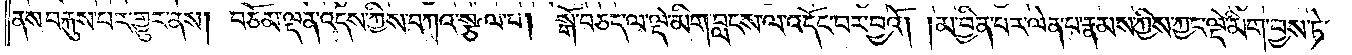ནས་བརྐུས་པར་གྱུར་ནས། བཅོམ་ལྡན་འདས་ཀྱིས་བཀའ་སྩལ་པ། སྒོ་བཅད་ལ་ལྡེ་མིག་བླངས་ལ་འདོང་བར་བྱའོ། །མ་བྱིན་པར་ལེན་པ་རྣམས་ཀྱིས་ཀྱང་ལྡེ་མིག་བྱས་ཏེ་
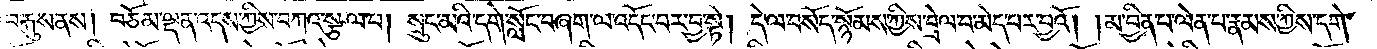བརྐུས་ནས། བཅོམ་ལྡན་འདས་ཀྱིས་བཀའ་སྩལ་པ། སྲུང་མའི་དགེ་སློང་བཞག་ལ་འདོང་བར་བྱ་སྟེ། དེ་ལ་བསོད་སྙོམས་ཀྱིས་བྲེལ་བ་མེད་པར་བྱའོ། །མ་བྱིན་པ་ལེན་པ་རྣམས་ཀྱིས་དགེ་
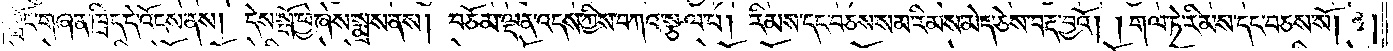སློང་གཞན་ཁྲིད་དེ་འོངས་ནས། དེས་སྒོ་ཕྱེ་ཞེས་སྨྲས་ནས། བཅོམ་ལྡན་འདས་ཀྱིས་བཀའ་སྩལ་པ། རིམས་དང་བཅས་སམ་རིམས་མེད་ཅེས་བརྡ་བྱའོ། །གལ་ཏེ་རིམས་དང་བཅས་སོ། །
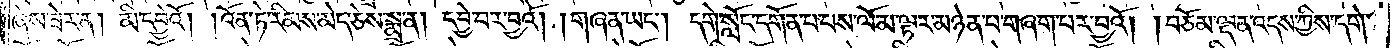ཞེས་ཟེར་ན། མི་དབྱེའོ། །འོན་ཏེ་རིམས་མེད་ཅེས་སྨྲ་ན། དབྱེ་བར་བྱའོ། །གཞན་ཡང༌། དགེ་སློང་དགོན་པ་པས་ལོ་མ་ལྟར་མཉེན་པ་གཞག་པར་བྱའོ། །བཅོམ་ལྡན་འདས་ཀྱིས་དགེ་
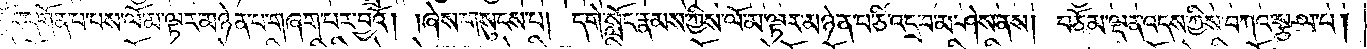སློང་དགོན་པ་པས་ལོ་མ་ལྟར་མཉེན་པ་གཞག་པར་བྱའོ། །ཞེས་གསུངས་པ། དགེ་སློང་རྣམས་ཀྱིས་ལོ་མ་ལྟར་མཉེན་པ་ཅི་འདྲ་བ་མ་ཤེས་ནས། བཅོམ་ལྡན་འདས་ཀྱིས་བཀའ་སྩལ་པ།
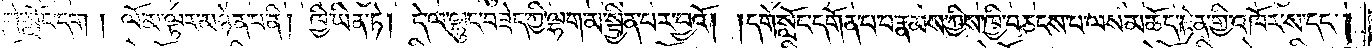དགེ་སློང་དག། ལོ་མ་ལྟར་མཉེན་པ་ནི། ཁྱི་ཡིན་ཏེ། དེ་ལ་ལྷུང་བཟེད་ཀྱི་ལྷག་མ་སྦྱིན་པར་བྱའོ། །དགེ་སློང་དགོན་པ་རྣམས་ཀྱིས་ཁྱི་བཅངས་པ་ལས་མཆོད་རྟེན་གྱི་འཁོར་ས་དང༌།
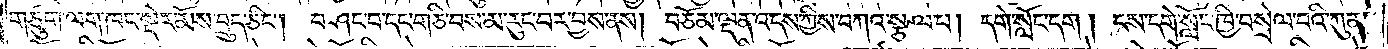གཙུག་ལག་ཁང་སྡེར་མོས་བྲུད་ཅིང༌། བཤད་བ་དང་གཅི་བས་མ་རུང་བར་བྱས་ནས། བཅོམ་ལྡན་འདས་ཀྱིས་བཀའ་སྩལ་པ། དགེ་སློང་དག། ངས་དགེ་སློང་ཁྱི་བསྲེལ་བའི་ཀུན་
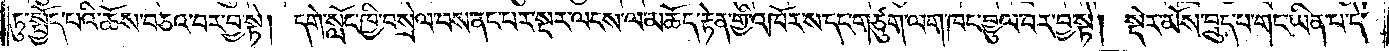ཏུ་སྤྱོད་པའི་ཆོས་བཅའ་བར་བྱ་སྟེ། དགེ་སློང་ཁྱི་བསྲེལ་བས་ནང་པར་སྔར་ལངས་ལ་མཆོད་རྟེན་གྱི་འཁོར་ས་དང་གཙུག་ལག་ཁང་བྱུལ་བར་བྱ་སྟེ། སྡེར་བྲུད་པ་གང་ཡིན་པ་དེ་
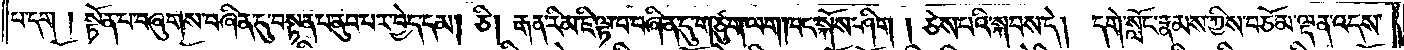པ་དག། སྟོན་པ་བཞུགས་བཞིན་དུ་བསྟན་པ་ནུབ་པར་བྱེད་དམ། ཅི། རྒན་རིམ་ཇི་ལྟ་བ་བཞིན་དུ་གཙུག་ལག་ཁང་སྐོས་ཤིག། ཅེས་པའི་སྐབས་དེ། དགེ་སློང་རྣམས་ཀྱིས་བཅོམ་ལྡན་འདས་
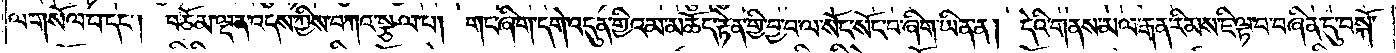ལ་གསོལ་པ་དང༌། བཅོམ་ལྡན་འདས་ཀྱིས་བཀའ་སྩལ་པ། གང་ཞིག་དགེ་འདུན་གྱིའམ་མཆོད་རྟེན་གྱི་བྱ་བ་ལ་སོང་སོང་བ་ཞིག་ཡིན་ན། དེའི་གནས་མལ་རྒན་རིམས་ཇི་ལྟ་བ་བཞིན་དུ་བསྐོ་
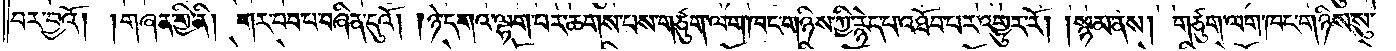བར་བྱའོ། །གཞན་གྱི་ནི། གར་བབ་པ་བཞིན་དུའོ། །ཉེ་དགའ་ལྷག་པར་ཆགས་པས་གཙུག་ལག་ཁང་གཉིས་ཀྱི་རྙེད་པ་འཐོབ་པར་འགྱུར་རོ། །སྙམ་ནས། གཙུག་ལག་ཁང་གཉིས་སུ་
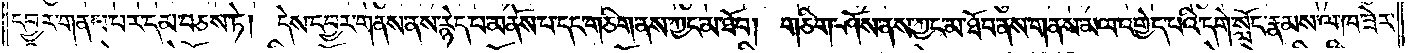དབྱར་གནས་པར་དམ་བཅས་ཏེ། དེས་དབྱར་གནས་ནས་རྙེད་པ་མནོས་པ་དང་གཅིག་ནས་ཀྱང་མ་ཐོབ། གཅིག་ཤོས་ནས་ཀྱང་མ་ཐོབ་ནས་གནས་མལ་འགྱེད་པའི་དགེ་སློང་རྣམས་ལ་ཁ་ཟེར་
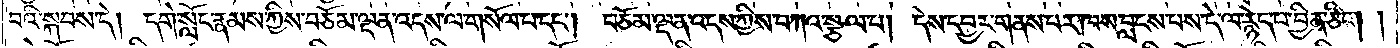བའི་སྐབས་དེ། དགེ་སློང་རྣམས་ཀྱིས་བཅོམ་ལྡན་འདས་ལ་གསོལ་པ་དང༌། བཅོམ་ལྡན་འདས་ཀྱིས་བཀའ་སྩལ་པ། དེས་དབྱར་གནས་པར་ཁས་བླངས་པས་དེ་ལ་རྙེད་པ་བྱིན་ཅིག།
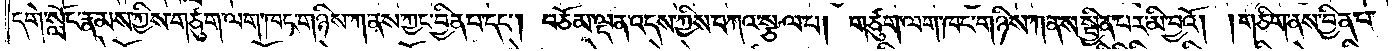དགེ་སློང་རྣམས་ཀྱིས་གཙུག་ལག་ཁང་གཉིས་ཀ་ནས་ཀྱང་བྱིན་པ་དང༌། བཅོམ་ལྡན་འདས་ཀྱིས་བཀའ་སྩལ་པ། གཙུག་ལག་ཁང་གཉིས་ཀ་ནས་སྦྱིན་པར་མི་བྱའོ། །གཅིག་ནས་བྱིན་པ་
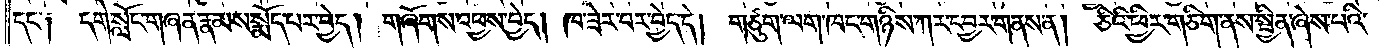དང༌༑ དགེ་སློང་གཞན་རྣམས་སྨོད་པར་བྱེད། གཞོགས་འཕྱས་བྱེད། ཁ་ཟེར་བར་བྱེད་དེ། གཙུག་ལག་ཁང་གཉིས་ཀར་དབྱར་གནས་ན། ཅིའི་ཕྱིར་གཅིག་ནས་སྦྱིན་ཞེས་པའི་
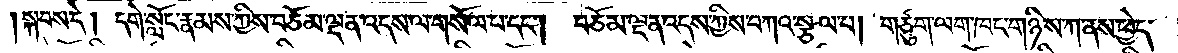།སྐབས་དེ། དགེ་སློང་རྣམས་ཀྱིས་བཅོམ་ལྡན་འདས་ལ་གསོལ་པ་དང༌། བཅོམ་ལྡན་འདས་ཀྱིས་བཀའ་སྩལ་པ། གཙུག་ལག་ཁང་གཉིས་ཀ་ནས་ཕྱེད་
